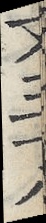文三十八
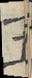五
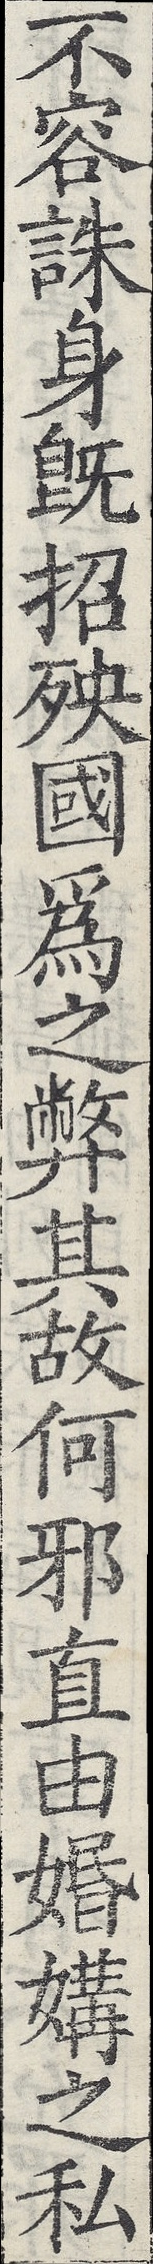不容誅身既招殃國為之弊其故何邪直由婚媾之私
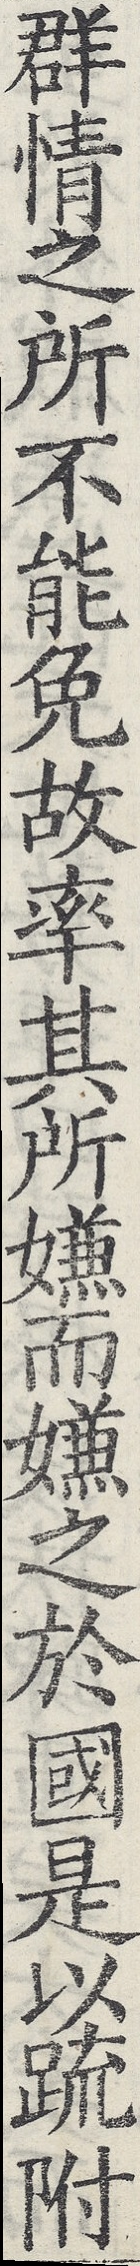群情之所不能免故率其所嫌而嫌之於國是以疏附
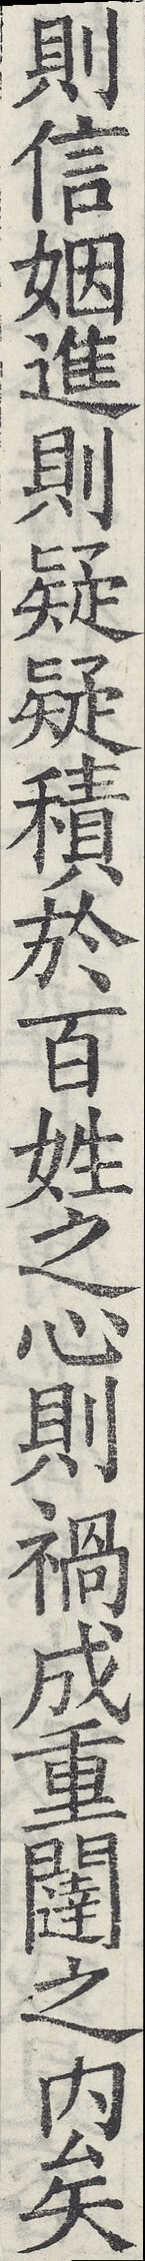則信姻進則疑疑積於百姓之心則禍成重闥之內矣
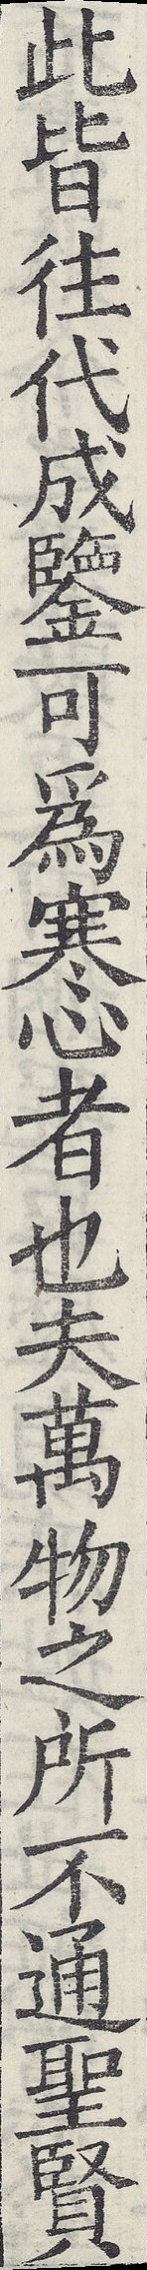此皆往代成鑒可為寒心者也夫萬物之所不通聖賢
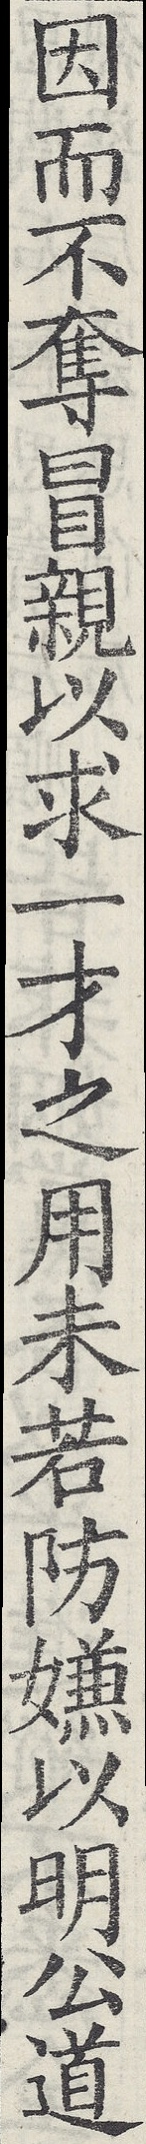因而不奪冒親以求一才之用未若防嫌以明公道
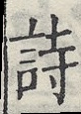詩
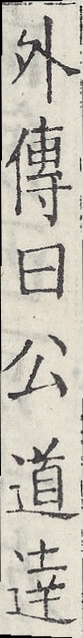外傳曰公道達
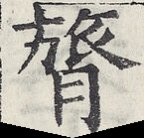膂
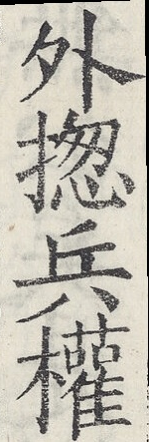外揔兵權
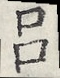呂
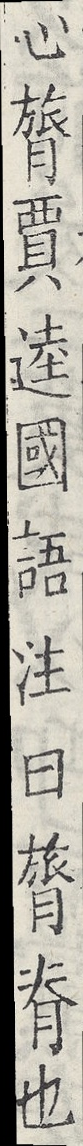心膂賈逵國語注曰膂脊也
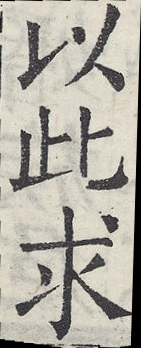以此求
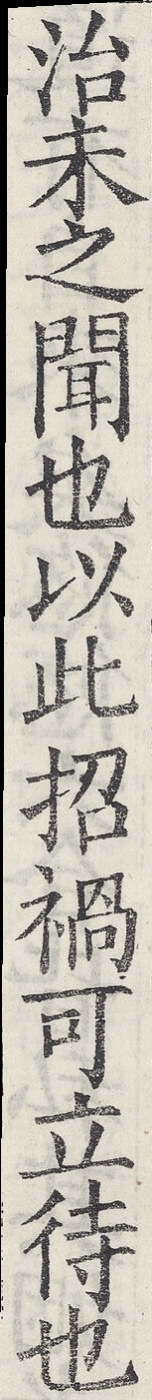治未之聞也以此招禍可立待也
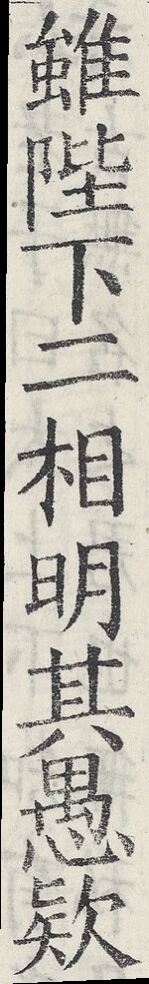雖陛下二相明其愚欵
